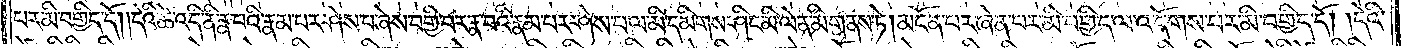པར་མི་བགྱིད་དོ། །དེའི་ཚེ་འདི་ནི་རྣ་བའི་རྣམ་པར་ཤེས་པ་ཞེས་བགྱི་བར་རྣ་བའི་རྣམ་པར་ཤེས་པ་ལ་མི་དམིགས་ཤིང་མི་ལེན་མི་གནས་ཏེ། མངོན་པར་ཞེན་པར་མི་བགྱིད་ལ་འདོགས་པར་མི་བགྱིད་དོ། །དེའི་
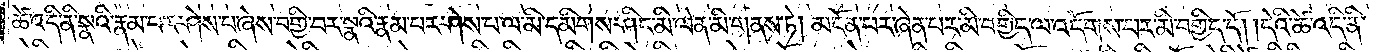ཚེ་འདི་ནི་སྣའི་རྣམ་པར་ཤེས་པ་ཞེས་བགྱི་བར་སྣའི་རྣམ་པར་ཤེས་པ་ལ་མི་དམིགས་ཤིང་མི་ལེན་མི་གནས་ཏེ། མངོན་པར་ཞེན་པར་མི་བགྱིད་ལ་འདོགས་པར་མི་བགྱིད་དོ། །དེའི་ཚེ་འདི་ནི་
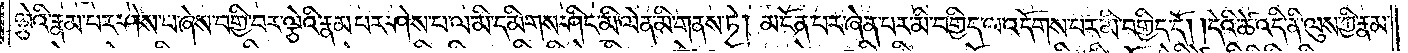ལྕེའི་རྣམ་པར་ཤེས་པ་ཞེས་བགྱི་བར་ལྕེའི་རྣམ་པར་ཤེས་པ་ལ་མི་དམིགས་ཤིང་མི་ལེན་མི་གནས་ཏེ། མངོན་པར་ཞེན་པར་མི་བགྱིད་ལ་འདོགས་པར་མི་བགྱིད་དོ། །དེའི་ཚེ་འདི་ནི་ལུས་ཀྱི་རྣམ་
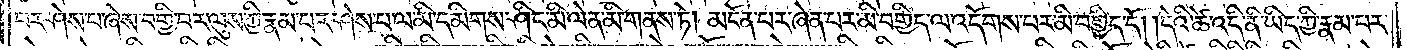པར་ཤེས་པ་ཞེས་བགྱི་བར་ལུས་ཀྱི་རྣམ་པར་ཤེས་པ་ལ་མི་དམིགས་ཤིང་མི་ལེན་མི་གནས་ཏེ། མངོན་པར་ཞེན་པར་མི་བགྱིད་ལ་འདོགས་པར་མི་བགྱིད་དོ། །དེའི་ཚེ་འདི་ནི་ཡིད་ཀྱི་རྣམ་པར་
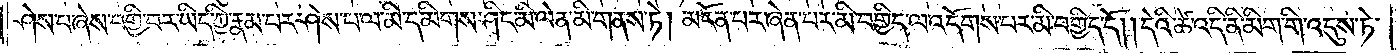ཤེས་པ་ཞེས་བགྱི་བར་ཡིད་ཀྱི་རྣམ་པར་ཤེས་པ་ལ་མི་དམིགས་ཤིང་མི་ལེན་མི་གནས་ཏེ། མངོན་པར་ཞེན་པར་མི་བགྱིད་ལ་འདོགས་པར་མི་བགྱིད་དོ། །དེའི་ཚེ་འདི་ནི་མིག་གི་འདུས་ཏེ་
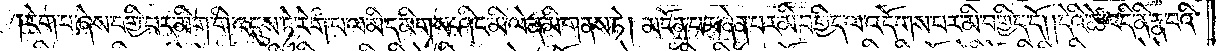རེག་པ་ཞེས་བགྱི་བར་མིག་གི་འདུས་ཏེ་རེག་པ་ལ་མི་དམིགས་ཤིང་མི་ལེན་མི་གནས་ཏེ། མངོན་པར་ཞེན་པར་མི་བགྱིད་ལ་འདོགས་པར་མི་བགྱིད་དོ། །དེའི་ཚེ་འདི་ནི་རྣ་བའི་
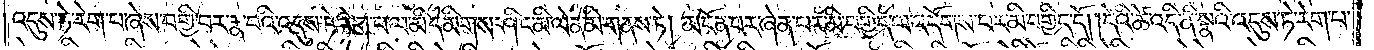འདུས་ཏེ་རེག་པ་ཞེས་བགྱི་བར་རྣ་བའི་འདུས་ཏེ་རེག་པ་ལ་མི་དམིགས་ཤིང་མི་ལེན་མི་གནས་ཏེ། མངོན་པར་ཞེན་པར་མི་བགྱིད་ལ་འདོགས་པར་མི་བགྱིད་དོ། །དེའི་ཚེ་འདི་ནི་སྣའི་འདུས་ཏེ་རེག་པ་
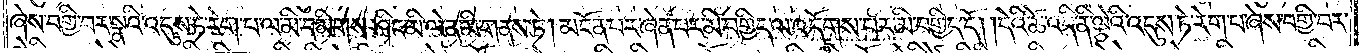ཞེས་བགྱི་བར་སྣའི་འདུས་ཏེ་རེག་པ་ལ་མི་དམིགས་ཤིང་མི་ལེན་མི་གནས་ཏེ། མངོན་པར་ཞེན་པར་མི་བགྱིད་ལ་འདོགས་པར་མི་བགྱིད་དོ། །དེའི་ཚེ་འདི་ནི་ལྕེའི་འདུས་ཏེ་རེག་པ་ཞེས་བགྱི་བར་
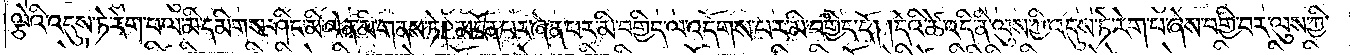ལྕེའི་འདུས་ཏེ་རེག་པ་ལ་མི་དམིགས་ཤིང་མི་ལེན་མི་གནས་ཏེ། མངོན་པར་ཞེན་པར་མི་བགྱིད་ལ་འདོགས་པར་མི་བགྱིད་དོ། །དེའི་ཚེ་འདི་ནི་ལུས་ཀྱི་འདུས་ཏེ་རེག་པ་ཞེས་བགྱི་བར་ལུས་ཀྱི་
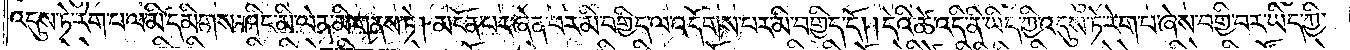འདུས་ཏེ་རེག་པ་ལ་མི་དམིགས་ཤིང་མི་ལེན་མི་གནས་ཏེ། མངོན་པར་ཞེན་པར་མི་བགྱིད་ལ་འདོགས་པར་མི་བགྱིད་དོ། །དེའི་ཚེ་འདི་ནི་ཡིད་ཀྱི་འདུས་ཏེ་རེག་པ་ཞེས་བགྱི་བར་ཡིད་ཀྱི་
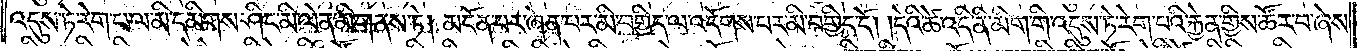འདུས་ཏེ་རེག་པ་ལ་མི་དམིགས་ཤིང་མི་ལེན་མི་གནས་ཏེ། མངོན་པར་ཞེན་པར་མི་བགྱིད་ལ་འདོགས་པར་མི་བགྱིད་དོ། །དེའི་ཚེ་འདི་ནི་མིག་གི་འདུས་ཏེ་རེག་པའི་རྐྱེན་གྱིས་ཚོར་བ་ཞེས་
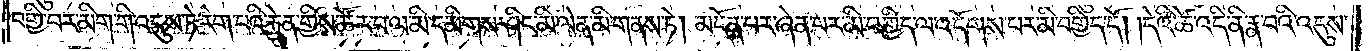བགྱི་བར་མིག་གི་འདུས་ཏེ་རེག་པའི་རྐྱེན་གྱིས་ཚོར་བ་ལ་མི་དམིགས་ཤིང་མི་ལེན་མི་གནས་ཏེ། མངོན་པར་ཞེན་པར་མི་བགྱིད་ལ་འདོགས་པར་མི་བགྱིད་དོ། །དེའི་ཚེ་འདི་ནི་རྣ་བའི་འདུས་
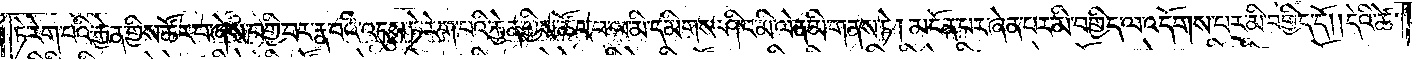ཏེ་རེག་པའི་རྐྱེན་གྱིས་ཚོར་བ་ཞེས་བགྱི་བར་རྣ་བའི་འདུས་ཏེ་རེག་པའི་རྐྱེན་གྱིས་ཚོར་བ་ལ་མི་དམིགས་ཤིང་མི་ལེན་མི་གནས་ཏེ། མངོན་པར་ཞེན་པར་མི་བགྱིད་ལ་འདོགས་པར་མི་བགྱིད་དོ། །དེའི་ཚེ་
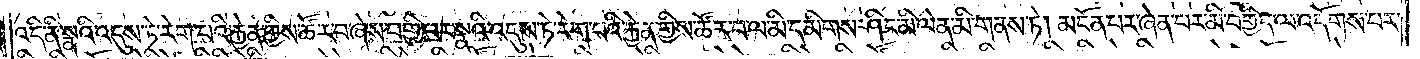འདི་ནི་སྣའི་འདུས་ཏེ་རེག་པའི་རྐྱེན་གྱིས་ཚོར་བ་ཞེས་བགྱི་བར་སྣའི་འདུས་ཏེ་རེག་པའི་རྐྱེན་གྱིས་ཚོར་བ་ལ་མི་དམིགས་ཤིང་མི་ལེན་མི་གནས་ཏེ། མངོན་པར་ཞེན་པར་མི་བགྱིད་ལ་འདོགས་པར་
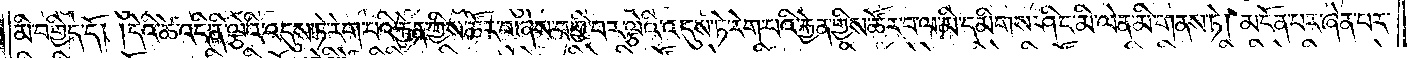མི་བགྱིད་དོ། །དེའི་ཚེ་འདི་ནི་ལྕེའི་འདུས་ཏེ་རེག་པའི་རྐྱེན་གྱིས་ཚོར་བ་ཞེས་བགྱི་བར་ལྕེའི་འདུས་ཏེ་རེག་པའི་རྐྱེན་གྱིས་ཚོར་བ་ལ་མི་དམིགས་ཤིང་མི་ལེན་མི་གནས་ཏེ། མངོན་པར་ཞེན་པར་
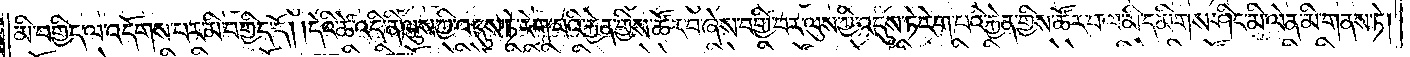མི་བགྱིད་ལ་འདོགས་པར་མི་བགྱིད་དོ། །དེའི་ཚེ་འདི་ནི་ལུས་ཀྱི་འདུས་ཏེ་རེག་པའི་རྐྱེན་གྱིས་ཚོར་བ་ཞེས་བགྱི་བར་ལུས་ཀྱི་འདུས་ཏེ་རེག་པའི་རྐྱེན་གྱིས་ཚོར་བ་ལ་མི་དམིགས་ཤིང་མི་ལེན་མི་གནས་ཏེ།
